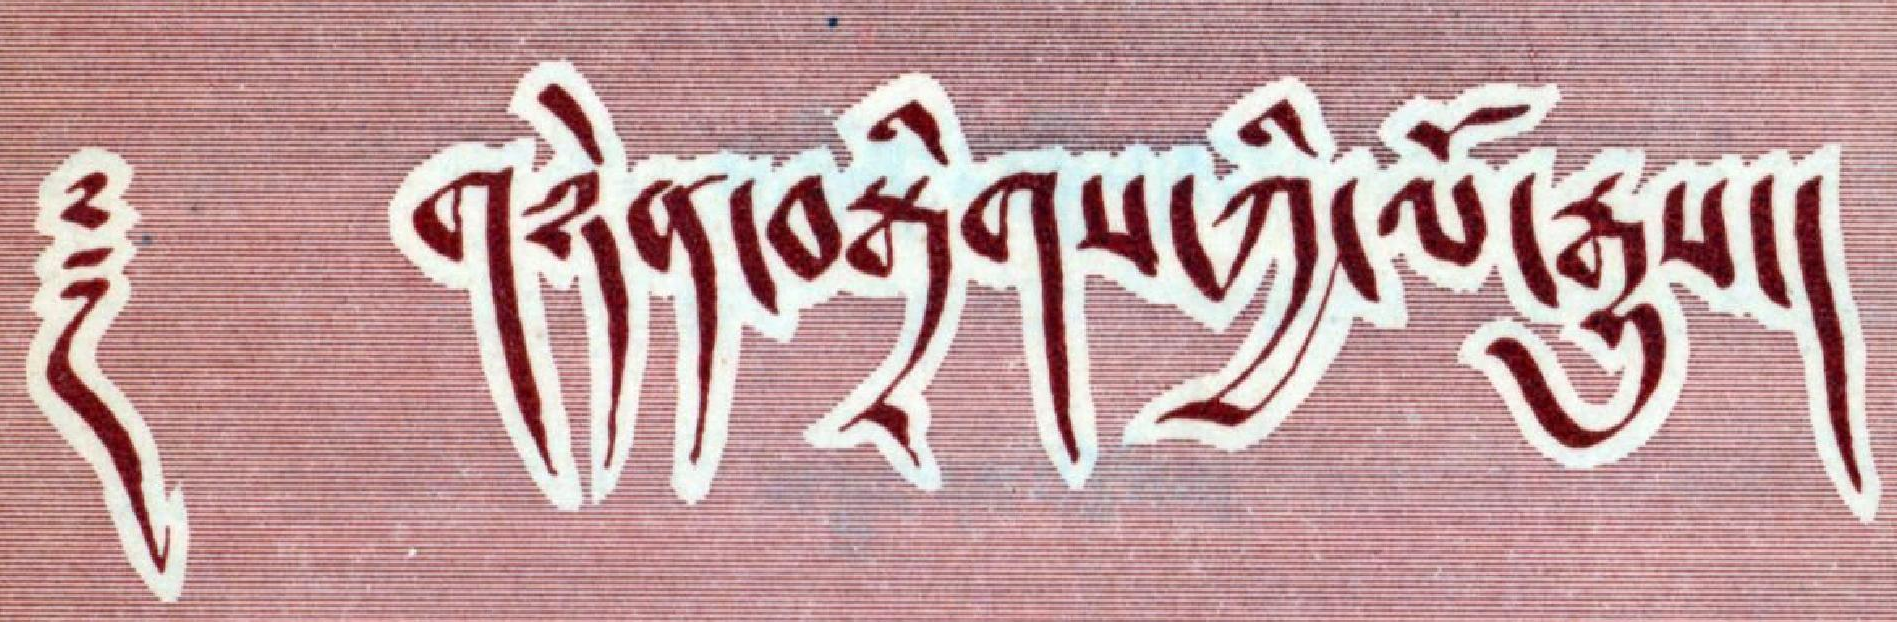༄༅། གཉེན་བསྒྲིགས་ཀྱི་ལོ་རྒྱུས།
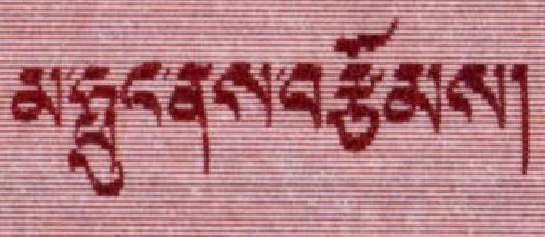མ་ཧྥུང་ནས་བརྩོམས།
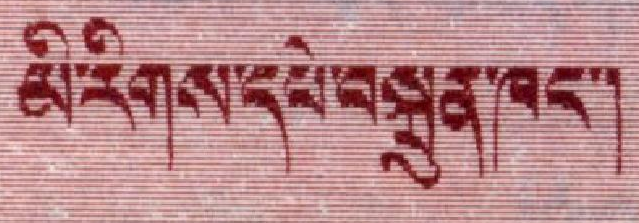མི་རིགས་དཔེ་བསྐྲུན་ཁང་།
